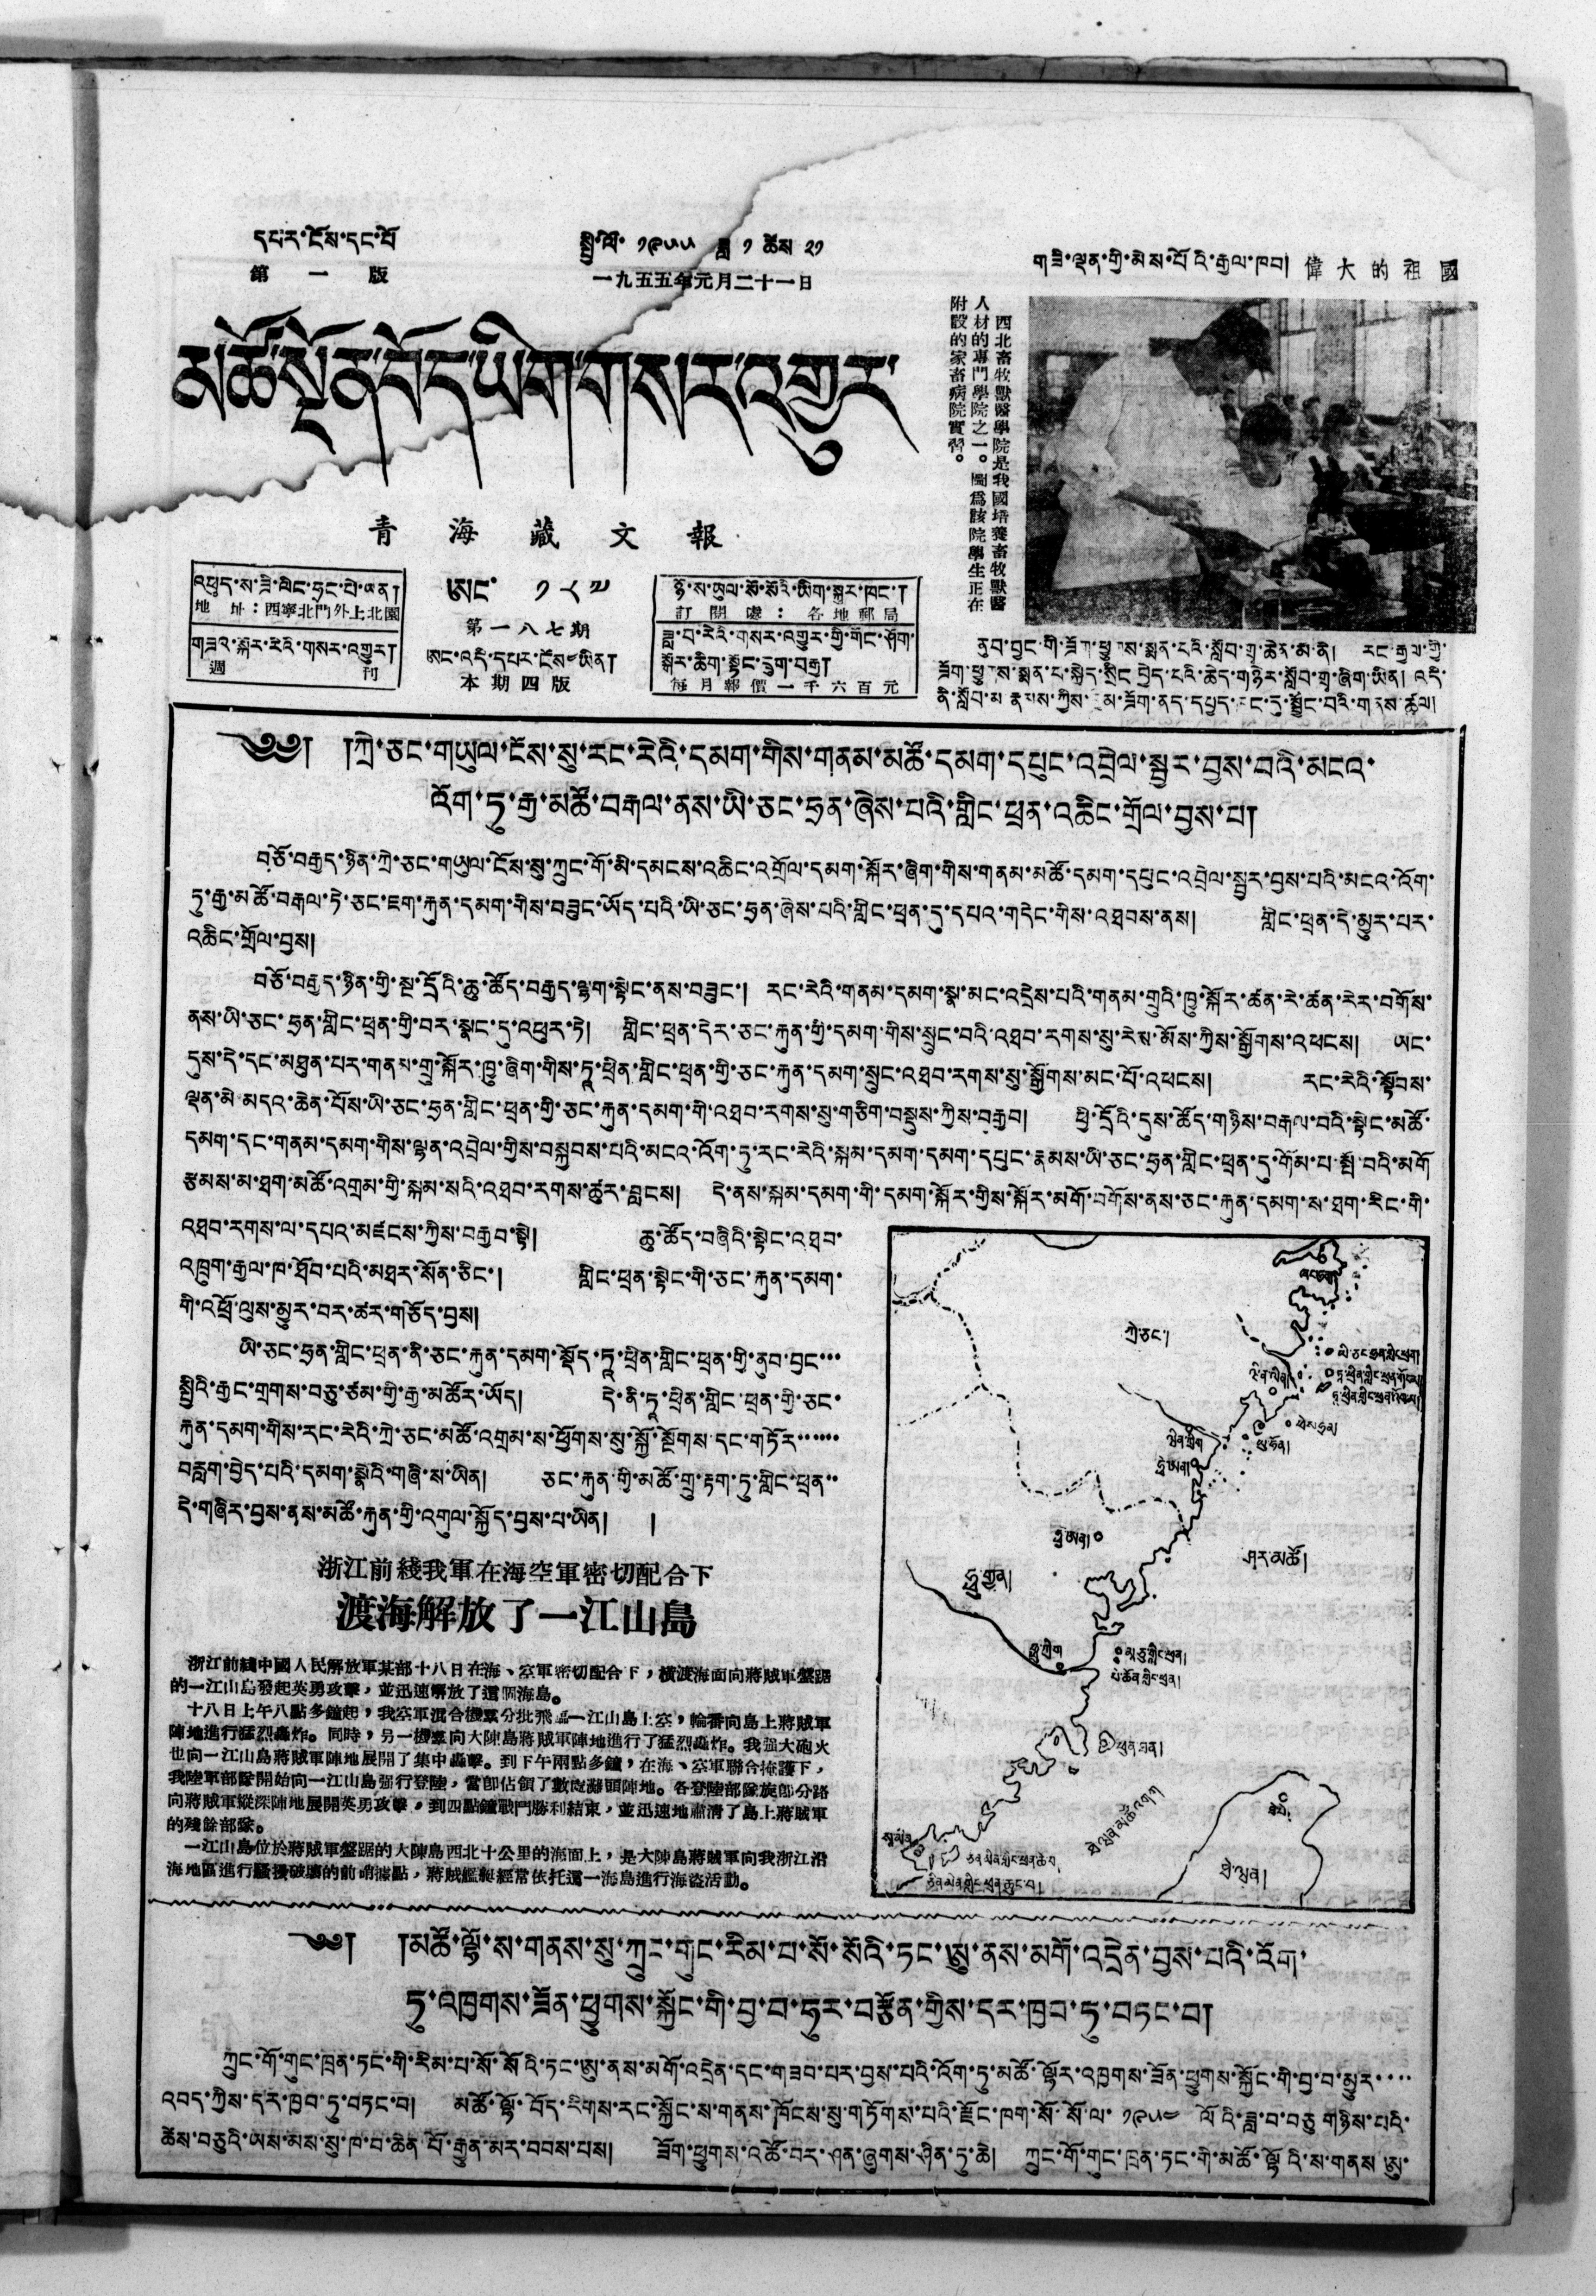དཔར་ངོས་དང་པོ   སྤྱི་ལོ་ ༡༩༥༥ ཟླ་ ༡ ཚེས ༢༡
第 一 版 一九五五年元月二十一日
མཚོ་སྔོན་བོད་ཡིག་གསར་འགྱུར་
青 海 藏 文 報
འཕུད་ས་ཟི་ལིང་ཧྲང་པེ་ཡན།
地 址：西寧北門外上北園西報文年月上地會
གཟའ་སྐོར་རེའི་གསར་འགྱུར།
週 刊
ཨང་ ༡༨༧
第一八七期
ཨང་འདི་དཔར་ངོས༤ཡིན།
本 期 四 版
ཉོ་ས་ཡུལ་སོ་སོའི་ཡིག་སྐུར་ཁང་།
訂 閱 處 ： 各 地 郵 局
ཟླ་བ་རེའི་གསར་འགྱུར་གྱི་གོང་ཤོག
སྒོར་ཆིག་སྟོང་དྲུག་བརྒྱ།
每 月 報 價 一 千 六 百 元
གཟི་ལྡན་གྱི་མེས་པོའི་རྒྱལ་ཁབ། 偉 大 的 祖 國
西北畜牧獸醫學院是我國培養畜牧獸醫
人材的專門學院之一。圖爲該院學生正在
附設的家畜病院實習。
ནུབ་བྱང་གི་ཟོག་ཕྱུགས་སྨན་པའི་སློབ་གྲྭ་ཆེན་མ་ནི། རང་རྒྱལ་གྱི་
ཟོག་ཕྱུགས་སྨན་པ་སྐྱེད་སྲིང བྱེད་པའི་ཆེད་གཉེར་སློབ་གྲྭ་ཞིག་ཡིན། འདི་
ནི་སློབ་མ རྣམས་ཀྱིས་མ་ཟོག་ནད་དཔྱད་རང་དུ་སྦྱོང་བའི་གནས་ཚུལ།
༄༅། །ཀྲེ་ཅང་གཡུལ་ངོས་སུ་རང་རེའི་དམག་གིས་གནམ་མཚོ་དམག་དཔུང་འབྲེལ་སྦྱར་བྱས་པའི་མངའ་
འོག་ཏུ་རྒྱ་མཚོ་བརྒལ་ནས་ཡི་ཅང་ཧྲན་ཞེས་པའི་གླིང་ཕྲན་འཆིང་གྲོལ་བྱས་པ།
བཅོ་བརྒྱད་ཉིན་ཀྲེ་ཅང་གཡུལ་ངོས་སུ་ཀྲུང་གོ་མི་དམངས་འཆིང་འགྲོལ་དམག་སྐོར་ཞིག་གིས་གནམ་མཚོ་དམག་དཔུང་འབྲེལ་སྦྱར་བྱས་པའི་མངའ་འོག་
ཏུ་རྒྱ་མཚོ་བརྒལ་ཏེ་ཅང་ཇག་རྐུན་དམག་གིས་བཟུང་ཡོད་པའི་ཡི་ཅང་ཧྲན་ཞེས་པའི་གླིང་ཕྲན་དུ་དཔའ་གདེང་གིས་འཐབས་ནས། གླིང་ཕྲན་དེ་མྱུར་པར
འཆིང་གྲོལ་བྱས།
བཅོ་བརྒྱད་ཉིན་གྱི་སྔ་དྲོའི་ཆུ་ཚོད་བརྒྱད་ལྷག་སྟེང་ནས་བཟུང་། རང་རེའི་གནམ་དམག་སྣ་མང་འདྲེས་པའི་གནམ་གྲུའི་ཁྱུ་སྐོར་ཚན་རེ་ཚན་རེར་བགོས་
ནས་ཡི་ཅང་ཧྲན་གླིང་ཕྲན་གྱི་བར་སྣང་དུ་འཕུར་ཏེ། གླིང་ཕྲན་དེར་ཅང་རྐུན་གྱི་དམག་གིས་སྲུང་བའི་འཐབ་རགས་སུ་རེས་མོས་ཀྱིས་སྒྱོགས་འཕངས། ཡང་
དུས་དེ་དང་མཐུན་པར་གནས་གྲུ་སྐོར་ཁྱུ་ཞིག་གིས་ཏཱ་ཕྲིན་གླིང་ཕྲན་གྱི་ཅང་རྐུན་དམག་སྲུང་འཐབ་རགས་སུ་སྒྱོགས་མང་པོ་འཕངས། རང་རེའི་སྟོབས་
ལྡན་མེ་མདའ་ཆེན་པོས་ཡི་ཅང་ཧྲན་གླིང་ཕྲན་གྱི་ཅང་རྐུན་དམག་གི་འཐབ་རགས་སུ་གཅིག་བསྡུས་ཀྱིས་བརྒྱབ། ཕྱི་དྲོའི་དུས་ཚོད་གཉིས་བརྒལ་བའི་སྟེང་མཚོ་
དམག་དང་གནམ་དམག་གིས་ལྷན་འབྲེལ་གྱིས་བསྐྱབས་པའི་མངའ་འོག་ཏུ་རང་རེའི་སྐམ་དམག་དམག་དཔུང་རྣམས་ཡི་ཅང་ཧྲན་གླིང་ཕྲན་དུ་གོམ་པ་སྤོ་བའི་མགོ
རྩམས་མ་ཐག་མཚོ་འགྲམ་གྱི་སྐམ་སའི་འཐབ་རགས་ཚུར་བླངས། དེ་ནས་སྐམ་དམག་གི་དམག་སྐོར་གྱིས་སྐོར་མགོ་བགོས་ནས་ཅང་རྐུན་དམག་ས་ཐག་རིང་གི་
འཐབ་རགས་ལ་དཔའ་མཛངས་ཀྱིས་བརྒྱབ་སྟེ། ཆུ་ཚོད་བཞིའི་སྟེང་འཐབ་
འཁྲུག་རྒྱལ་ཁ་ཐོབ་པའི་མཐར་སོན་ཅིང་། གླིང་ཕྲན་སྟེང་གི་ཅང་རྐུན་དམག་
གི་འཕྲོ་ལུས་མྱུར་བར་ཚར་གཅོད་བྱས།
ཡི་ཅང་ཧྲན་གླིང་ཕྲན་ནི་ཅང་རྐུན་དམག་སྡོད་ཏཱ་ཕྲིན་གླིང་ཕྲན་གྱི་ནུབ་བྱང་་་
སྤྱིའི་རྒྱང་གྲགས་བཅུ་ཙམ་གྱི་རྒྱ་མཚོར་ཡོད། དེ་ནི་ཏཱ་ཕྲིན་གླིང་ཕྲན་གྱི་ཅང་
རྐུན་དམག་གིས་རང་རེའི་ཀྲེ་ཅང་མཚོ་འགྲམ་ས་ཕྱོགས་སུ་སྐྱོ་སྔོགས་དང་གཏོར་་་་་་
བརླག་བྱེད་པའི་དམག་སྣེའི་གཞི་ས་ཡིན། ཅང་རྐུན་གྱི་མཚོ་གྲུ་རྟག་ཏུ་གླིང་ཕྲན་་
དེ་གཞིར་བྱས་ནས་མཚོ་རྐུན་གྱི་འགུལ་སྐྱོད་བྱས་པ་ཡིན།  །
浙江前綫我軍在海空軍密切配合下
渡海解放了一江山島
浙江前綫中國人民解放軍某部十八日在海、空軍密切配合下，橫渡海面向蔣賊軍盤踞
的一江山島發起英勇攻擊，並迅速解放了這個海島。
十八日上午八點多鍾起，我空軍混合機羣分批飛臨一江山島上空，輪番向島上蔣賊軍
陣地進行猛烈轟炸。同時，另一機羣向大陳島蔣賊軍陣地進行了猛烈轟炸。我強大砲火
也向一江山島蔣賊軍陣地展開了集中轟炸。到下午兩點多鍾，在海、空軍聯合掩護下，
我陸軍部隊開始向一江山島強行登陸，當卽佔領了數處灘頭陣地。各登陸部隊旋卽分路
向蔣賊軍縱深陣地展開英勇攻擊，到四點鐘戰鬥勝利結束，並迅速地肅清了島上蔣賊軍
的殘餘部隊。
一江山島位於蔣賊軍盤踞的大陳島西北十公里的海面上，是大陳島蔣賊軍向我浙江沿
海地區進行騷擾破壞的前哨據點，蔣賊艦艇經常依托這一海島進行海盜活動。
ཞང་ཧྲན།
ཀྲེ་ཅང་།
ཡི་ཅང་ཧྲན་གླིང་ཕྲན།
ཝིན་ལིན།
ཏཱ་ཕྲིན་གླིང་ཕྲན་གོང་མ།
ཏཱ་ཕྲིན་གླིང་ཕྲན་འོག་མ།
ཕེས་ཧྲན།
ཝིན་ཀྲིག
ཡུ་ཧོན།
ཧྥུ་ཨན།
ཧྥེ་ཨན།
ཤར་མཚོ།
ཧྥུ་གྱན།
ཧྥུ་ཀྲིག་
མཱ་ཅུ་གླིང་ཕྲན།
པེ་ཆོན་གླིང་ཕྲན།
ཕུན་ཐན།
ཐེ་ཝན་མཚོ་འགག
ཐེ་པེ།
སཱ་མིན།
ཅིན་མིན་གླིང་ཕྲན་ཆེ་བ།ཅི་མིན་གླིང་ཕྲན་ཆེ་བ།
ཐེ་ཝན།
ཅིན་མིན་གླིང་ཕྲན་ཆུང་བ།
༄༅། །མཚོ་ལྷོ་ས་གནས་སུ་ཀྲུང་གུང་རིམ་པ་སོ་སོའི་ཏང་ཨུ་ནས་མགོ་འདྲེན་བྱས་པའི་འོག་
ཏུ་འཁྱགས་ཟོན་ཕྱུགས་སྐྱོང་གི་བྱ་བ་ཧུར་བརྩོན་གྱིས་དར་ཁྱབ་ཏུ་བཏང་བ།
ཀྲུང་གོ་གུང་ཁྲན་ཏང་གི་རིམ་པ་སོ་སོའི་ཏང་ཨུ་ནས་མགོ་འདྲེན་དང་གཟབ་པར་བྱས་པའི་འོག་ཏུ་མཚོ་ལྷོར་འཁྱགས་ཟོན་ཕྱུགས་སྐྱོང་གི་བྱ་བ་མྱུར་་་
འབད་ཀྱིས་དར་ཁྱབ་ཏུ་བཏང་བ། མཚོ་ལྷོ་བོད་རིགས་རང་སྐྱོང་ས་གནས་ཁོངས་སུ་གཏོགས་པའི་རྫོང་ཁག་སོ་སོ་ལ་ ༡༩༥༤ ལོའི་ཟླ་བ་བཅུ གཉིས་པའི་
ཚེས་བཅུའི་ཡས་མས་སུ་ཁ་བ་ཆེན་པོ་རྒྱུན་མར་བབས་པས། ཟོག་ཕྱུགས་འཚོ་བར་ཤན་ཞུགས་ཤིན་ཏུ་ཆེ། ཀྲུང་གོ་གུང་ཁྲན་ཏང་གི་མཚོ་ལྷོའི་ས་གནས ཨུ་
